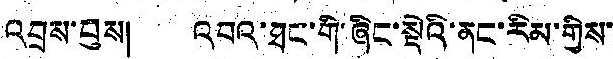འབྲས་བུས། འབའ་ཐང་གི་ཞིང་སྡེའི་ནང་རིམ་གྱིས་
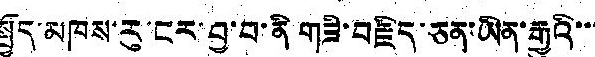སྤྱོད་མཁས་རུ་ངར་བྱ་བ་ནི གཟི་བརྗིད་ཅན་ཡིན་རྒྱུའི་་་
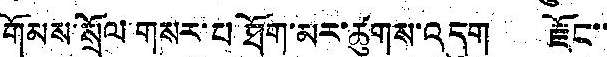གོམས་སྲོལ་གསར་པ ཐོག་མར་ཚུགས་འདུག རྗོང་་
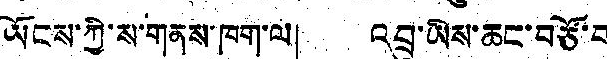ཡོངས་ཀྱི་ས་གནས་ཁག་ལ། འབྲུ་ཡིས་ཆང་བཙོ་བ
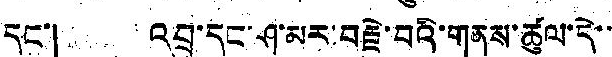དང་། འབྲུ་དང་ཤ་མར་བརྗེ་བའི་གནས་ཚུལ་དེ་་
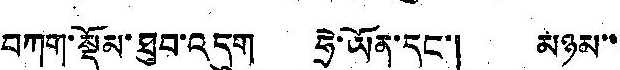བཀག་སྡོམ་ཐུབ་འདུག ཧྲེ་ཡོན་དང་། མཉམ་་
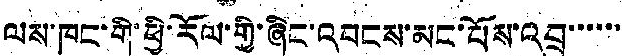ལས་ཁང་གི་ཕྱི་རོལ་གྱི་ཞིང་འབངས་མང་པོས་འབྲུ་་་་་་
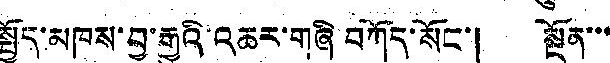སྤྱོད་མཁས་བྱ་རྒྱུའི་འཆར་གཞི བཀོད་སོང་། སྔོན་་་
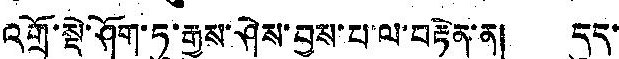འགྲོ་སྡེ་ཤོག་ཏུ་རྒྱུས་ཤེས་བྱས་པ་ལ་བརྟེན་ན། དུད་
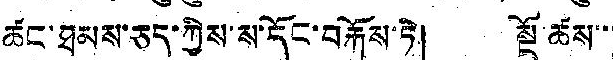ཚང་ཐམས་ཅད་ཀྱིས་ས་དོང་བརྐོས་ཏེ། སྔོ་ཚས་་་
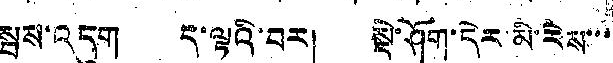སྦས་འདུག ད་ལྟའི་བར། སྡེ་ཤོག་དེར་མི་རེས་་་
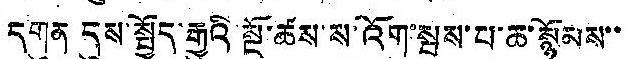དགུན དུས་སྤྱོད་རྒྱུའི་སྔོ་ཚས་ས་འོག་སྦས་པ་ཆ་སྙོམས་་
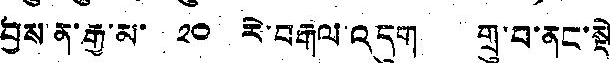བྱས་ན་རྒྱ་མ་ ༢༠ རེ་བརྒལ་འདུག གྲུ་བ་ནང་སྡེ
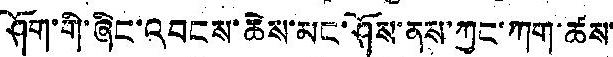ཤོག་གི་ཞིང་འབངས་ཆེས་མང་ཤོས་ནས་ཀྱང་ཀག་ཚས་
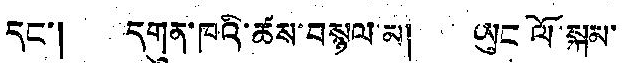དང་། དགུན་ཁའི་ཚས་བསྙལ་མ། ཡུང ལོ་སྐམ་
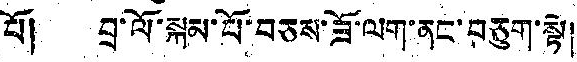པོ། བྲ་ལོ་སྐམ་པོ་བཅས་ཟོ་ལག་ནང་བཅུག་སྟེ།
